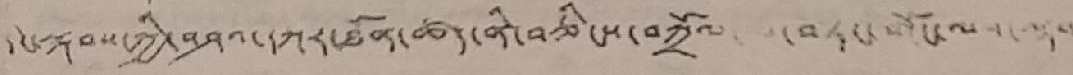དེང་སྐབས་ཀྱི་བཤའ་དཀར་ཐོན་ཚད་ནི་བཅིངས་བཀྲོལ་ བཏང་གོང་ལག་ལྟས་
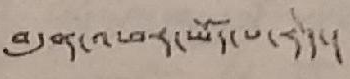བདུན་འཕར་ཡོད་པ་རེད་།
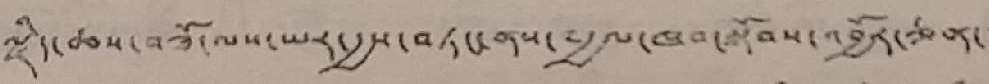ལྗིད་ཆས་བཟོ་ལས་ཡར་རྒྱས་བཏང་ནས་༸རྒྱལ་ཁབ་སྟོབས་འབྱོར་ཅན་་
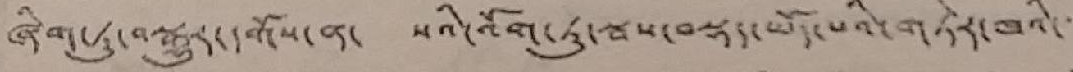ཞིག་ཏུ་བསྒྱུར་དགོས་ན་ སའི་འོག་ཏུ་སྦས་བསྡད་ཡོད་པའི་གཏེར་ཁའི་་་་
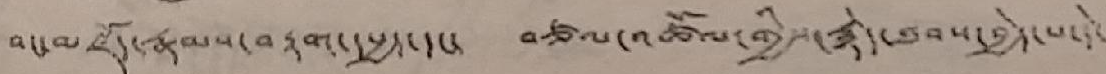བང་མཛོད་རྣམས་བརྟག་དཔྱད་དང་ བཙལ་འཚོལ་གྱིས་རྙེད་ཐུབས་བྱེད་པ་དེ་
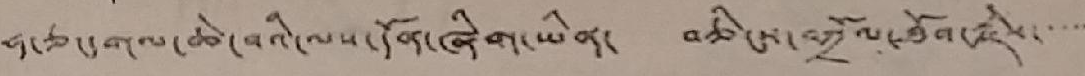ཧ་ཅང་གལ་ཆེ་བའི་ལས་དོན་ཞིག་ཡིན་ བཅིངས་བཀྲོལ་ཐོབ་རྗེས་་་་་
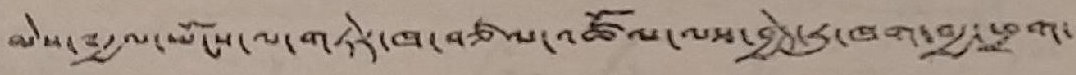མེས་༸རྒྱལ་ཡོངས་ལ་གཏེར་ཁ་བཙལ་འཚོལ་ལས་བྱེད་རུ་ཁག་བརྒྱ་ཕྲག་་་
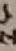ས
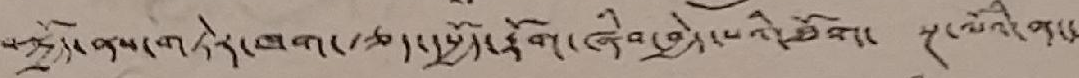བསྐྱོད་ནས་གཏེར་ཁག་རྩད་དཔྱོད་རྟོག་ཞིབ་བྱེད་པའི་ཐོག་ སྔ་ལོའི་ནང་
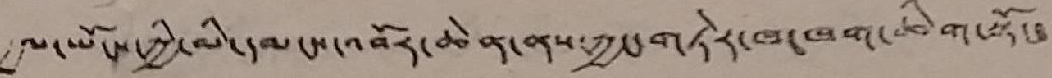རྒྱལ་ཡོངས་ཀྱི་མི་དམངས་འབོར་ཆེན་ནས་ཀྱང་གཏེར་ཁ་ཁག་ཆིག་སྟོང་་་
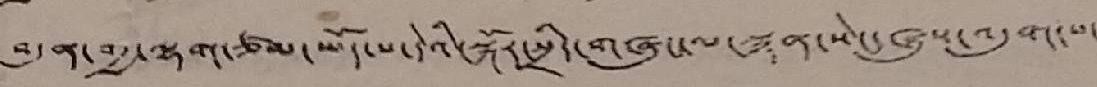བདུན་བརྒྱ་ལྷག་ཙམ་ཡོད་པ་དེའི་སྐོར་སྲིད་གཞུང་ལ་སྙན་སེང་ཞུས་འདུག་པ་
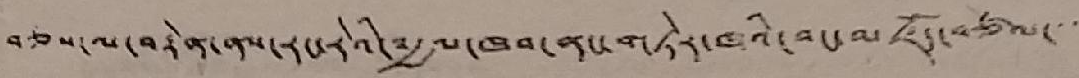བཅས་ལ་བརྟེན་ནས་རང་རེའི་༸རྒྱལ་ཁབ་ནང་གཏེར་ཁའི་བང་མཛོད་བཙལ་་་་
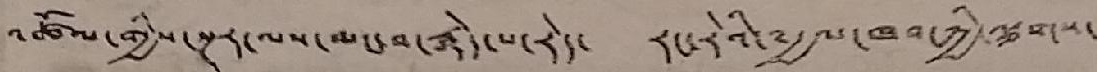འཚོལ་གྱིས་སྔར་ལས་མང་བ་རྙེད་པ་རེད་ རང་རེའི་༸རྒྱལ་ཁབ་ཀྱི་ལྕགས་
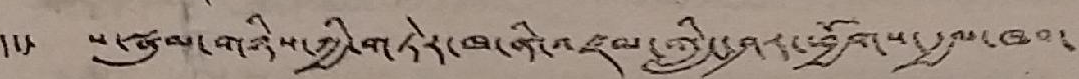དང་ ས་སྣུམ་གཉིས་ཀྱི་གཏེར་ཁ་ནི་འཛམ་གླིང་ཤར་ཕྱོགས་རྒྱལ་ཁབ་
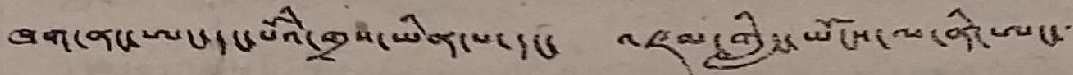ཁག་ནང་ཨང་དང་པོའི་གྲས་ཡིན་པ་དང་ འཛམ་གླིང་ཡོངས་ལ་ནི་ཨང་་་
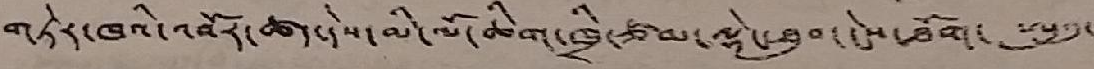གཏེར་ཁའི་འབོར་ཚད་དེས་མི་ལོ་ཆིག་ཁྲི་ཙམ་ལྡེང་ཐུབ་ངེས་ཐོག་ ཨུའུ་
